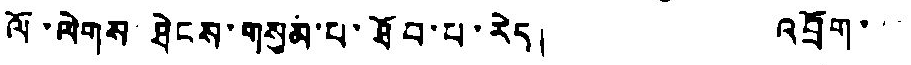ལོ་ལེགས ཐེངས་གསུམ་པ་ཐོབ་པ་རེད། འབྲོག་་
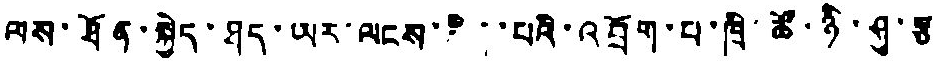ལས་ཐོན་སྐྱེད་ཐད་ཡར་ལངས་ཟིན་པའི་འབྲོག་པ་ཁྲི་ཚོ་ཉི་ཤུ་རྩ
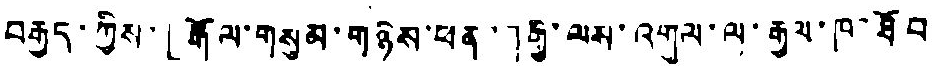བརྒྱད་ཀྱིས་「རྒོལ་གསུམ་གཉེས་ཕན་」གྱི་ལས་འགུལ་ལ་རྒྱལ་ཁ་ཐོབ
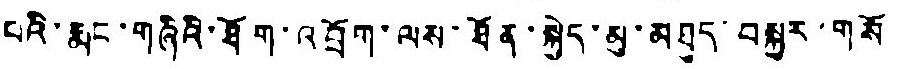པའི་རྨང་གཞིའི་ཐོག་འབྲོག་ལས་ཐོན་སྐྱེད་མུ་མཐུད་བསྐྱར་གསོ
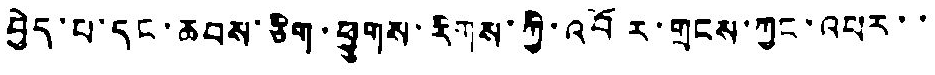བྱེད་པ་དང་ཆབས་ཅིག་ཕྱུགས་རིགས་ཀྱི་འབོར་གྲངས་ཀྱང་འབར་་
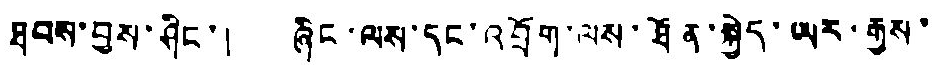ཐབས་བྱས་ཤིང་། ཞིང་ལས་དང་འབྲོག་ལས་ཐོན་སྐྱེད་ཡར་རྒྱས་
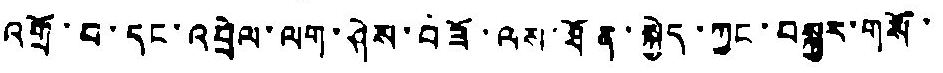འགྲོ་བ་དང་འབྲེལ་ལག་ཤེས་བཟོ་ལས་ཐོན་སྐྱེད་ཀྱང་བསྐྱར་གསོ་
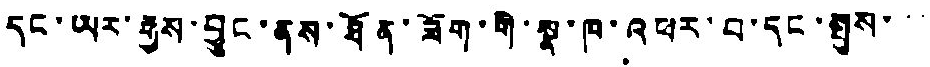དང་ཡར་རྒྱས་བྱུང་ནས་ཐོན་ཟོག་གི་སྣ་ཁ་འཕར་བ་དང་སྤུས་་་
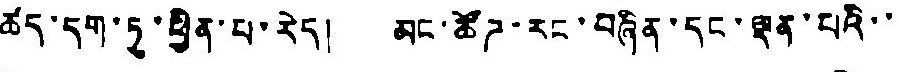ཚད་དག་ཏུ་ཕྱིན་པ་རེད། མང་ཚོཌ་རང་བཞིན་དང་ལྡན་པའི་་
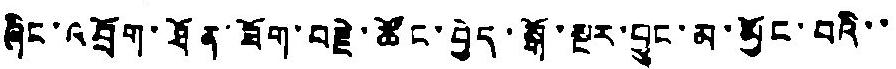ཞིང་འབྲོག་ཐོན་ཟོག་བརྗེ་ཚོང་བྱེད་སྒོ་སྔར་བྱུང་མ་མྱོང་བའི་་
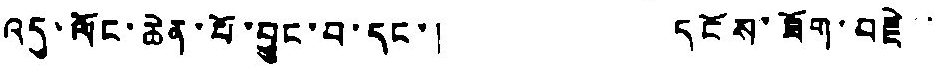འདུ་ལོང་ཆེན་པོ་བྱུང་བ་དང་། དངོས་ཐོག་བརྗེ་་
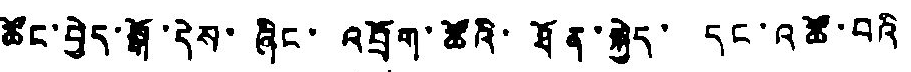ཚོང་བྱེད་སྒོ་དེས་ ཞིང་ འབྲོག་ཚོའི་ཐོན་སྐྱེད་ དང་འཚོ་བའི
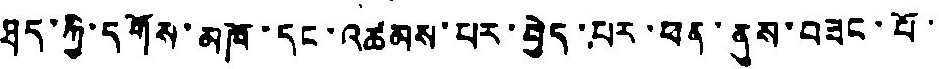ཐད་ཀྱི་དགོས་མཁོ་དང་འཚམས་པར་བྱེད་པར་ཕན་ནུས་བཟང་པོ་
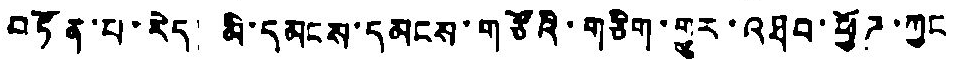བཏོན་པ་རེད། མི་དམངས་དམངས་གཙོའི་གཅིག་གྱུར་འཐབ་ཕྱོཌ་ཀྱང
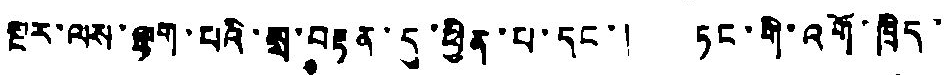སྔར་ལས་ལྷག་པའི་སྲ་བརྟན་དུ་ཕྱིན་པ་དང་། ཏང་གི་འགོ་ཁྲིད་
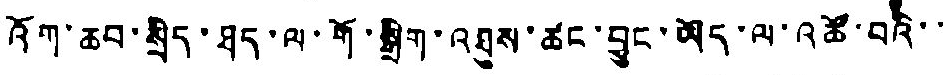འོག་ཆབ་སྲིད་ཐད་ལ་གོ་སྒྲིག་འཐུས་ཚང་བྱུང་ཡོད་ལ་འཚོ་བའི་་
